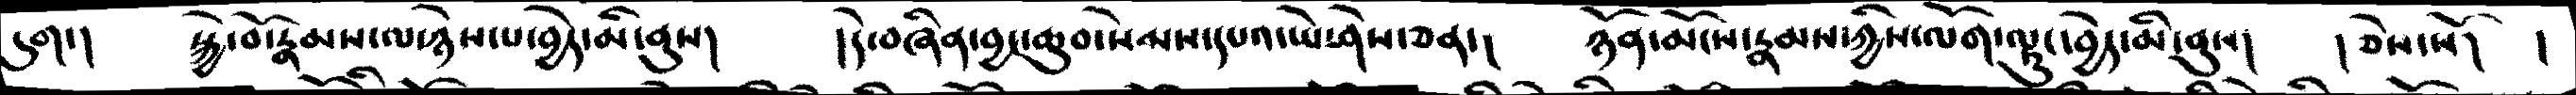དུག་།   སྐྱེ་བོ་རྣམས་ལ་ཉེས་པ་བྱེད་མི་ནུས།     །དེ་བཞིན་བྱང་ཆུབ་སེམས་དཔའ་ཡེ་ཤེས་ཅན་།     ཉོན་མོངས་རྣམས་ཀྱིས་ལོག་ལྟུང་བྱེད་མི་ནུས།  །ཅེས་སོ།  །
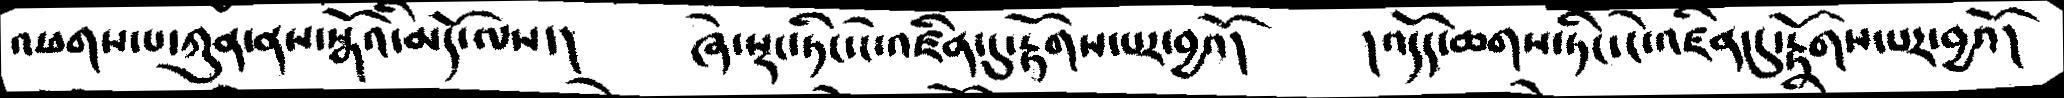འཕགས་པ་ཀུན་ནས་སྒོའི་མདོ་ལས་།    ཞེ་སྡང་ཏིང་ངེ་འཛིན་དུ་རྟོགས་པར་བྱའོ།     །འདོད་ཆགས་ཏིང་ངེ་འཛིནདུ་རྟོགས་པར་བྱའོ།
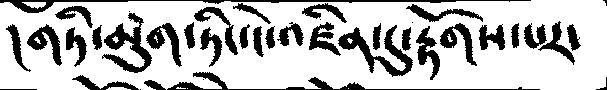།གཏི་མུག་ཏིང་ངེ་འཛིན་དུ་རྟོགས་པར་
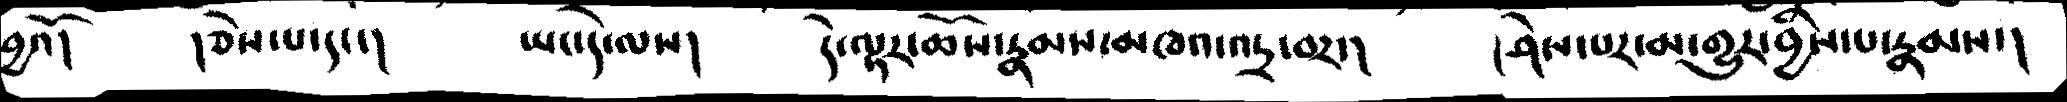བྱའོ།    །ཅེས་པ་དང་།    ཡང་དེ་ལས།     དེ་ལྟར་ཆོས་རྣམས་མཁའ་འདྲ་བར་།     །ཤེས་པར་མ་གྱུར་བྱིས་པ་རྣམས་།
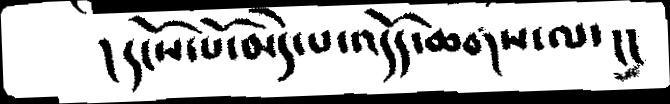།དངོས་པོ་མེད་པ་འདོད་ཆགས་ལ་།།
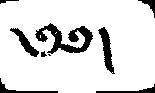༄༅།
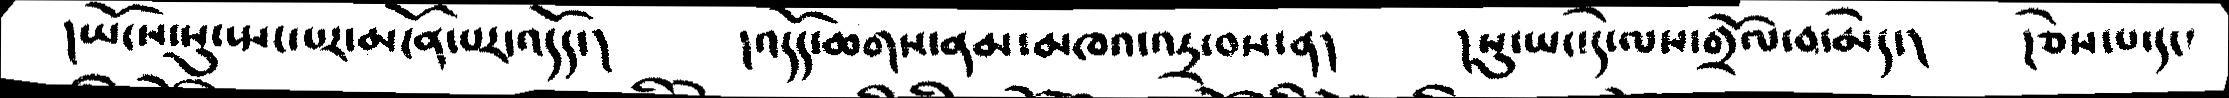།ཡོངས་སུ་སྤང་པར་མངོན་པར་འདོད་།     །འདོད་ཆགས་ནམ་མཁའ་འདྲ་བས་ན།      །སུ་ཡང་དེ་ལས་གྲོལ་བ་མེད་།    །ཅེས་པ་དང་
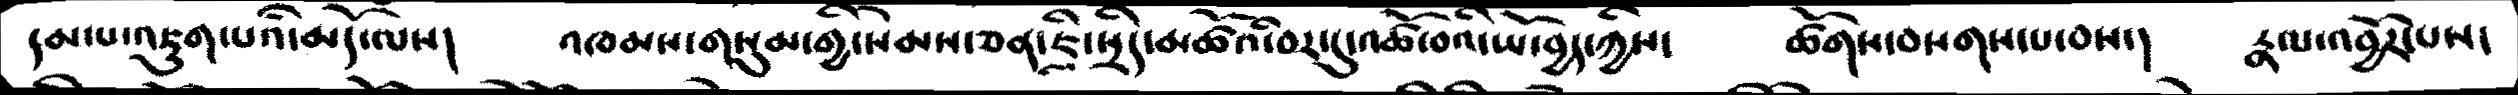དམ་པ་འཇུག་པའི་མདོ་ལས།   འཁམས་གསུམ་གྱི་སེམས་ཅན་ཇི་སྲིད་མཚོའི་བར་དུ་འཚོ་བའི་ཡོ་བྱད་ཀྱིས་    ཚོགས་བསག་པ་བས་།   རྣལ་འབྱོར་པས་
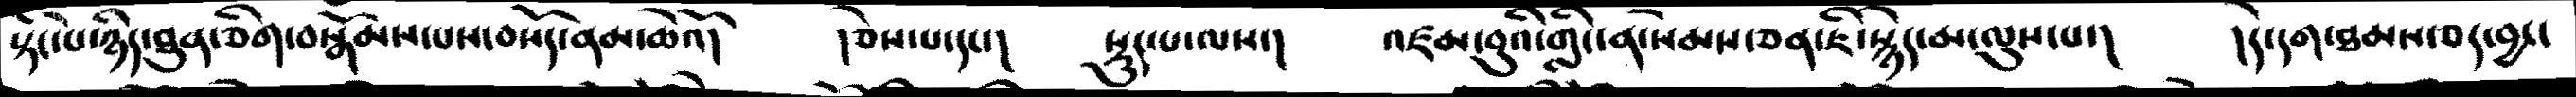སྟོང་པ་ཉིད་ཐུན་ཅིག་བསྒོམས་པས་བསོད་ནམ་ཆེའོ།    །ཅེས་པ་དང།   སྡུད་པ་ལས་།   འཛམ་བུའི་གླིང་ན་སེམས་ཅན་ཇི་སྙེད་མ་ལུས་པ་།   །དེ་དག་ཐམས་ཅད་བྱང་
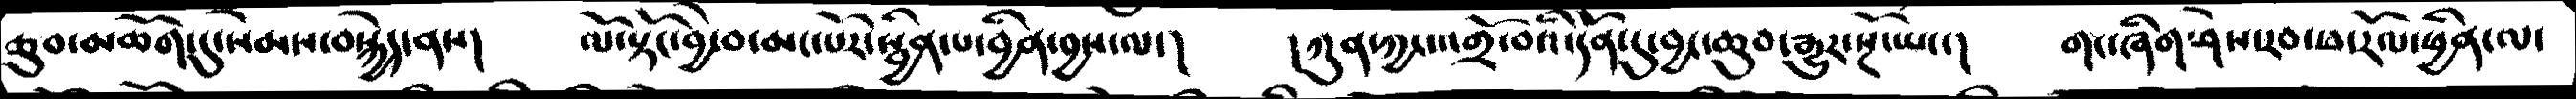ཆུབ་མཆོག་དུ་སེམས་བསྐྱེད་ནས།   ལོ་སྟོང་བྱེ་བ་མང་པོ་སྦྱིན་པ་བྱིན་བྱས་ལ་།   །ཀུན་ཀྱང་འགྲོ་བའི་དོན་དུ་བྱང་ཆུབ་རྒྱུར་སྔོ་ཡང་།    གང་ཞིག་ཤེས་རབ་ཕ་རོལ་ཕྱིན་ལ་
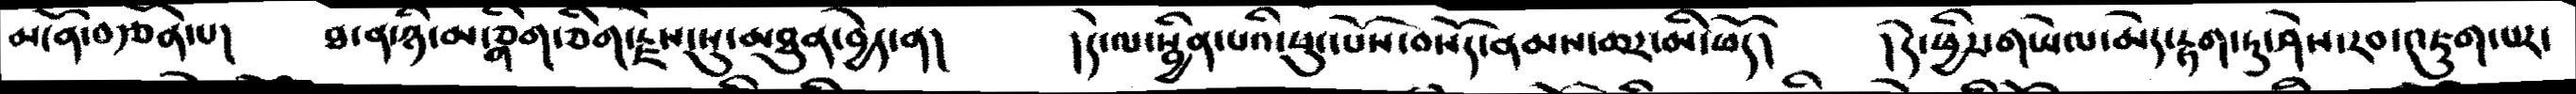མངོན་བརྩོན་པ།   ཐ་ན་ཉི་མ་གཅིག་ཅིག་རྗེས་སུ་མཐུན་བྱེད་ན།      །དེ་ལ་སྦྱིན་པའི་ཕུང་པོས་བསོད་ནམས་ཆར་མི་ཕོད།    །དེ་ཕྱིར་གཡེལ་མེད་རྟག་ཏུ་ཤེས་རབ་འཇུག་པར་
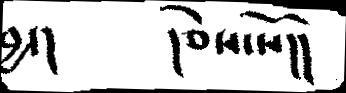བྱ་།                    །ཅེས་སོ།།
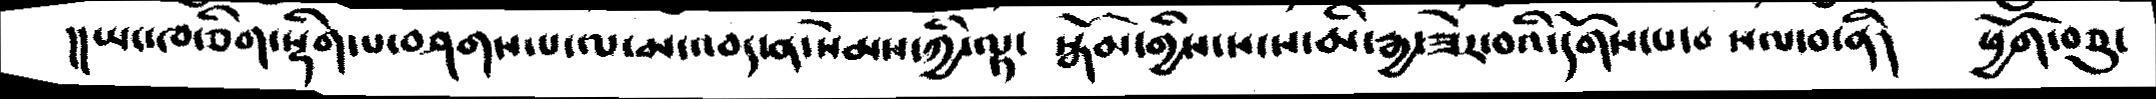།།ཡང་ཁ་ཅིག་སྡིག་པ་བཤགས་པ་ལ་མ་འབད་ན་སེམས་ཀྱི་ལྟ་  སྒོམ་གྱིས་སངས་མི་རྒྱ་ཟེར་བའི་དོགས་པ་བསལ་བ་ནི།   ཕྱོག་བཅུ་
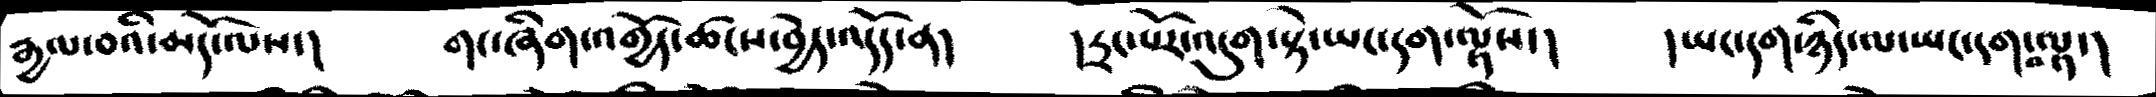རྒྱལ་བའི་མདོ་ལས་།    གང་ཞིག་འགྱོད་ཚངས་བྱེད་འདོད་ན།    །དྲང་པོར་འདུག་སྟེ་ཡང་དག་ལྟོས་།     །ཡང་དག་ཉིད་ལ་ཡང་དག་བལྟ་།
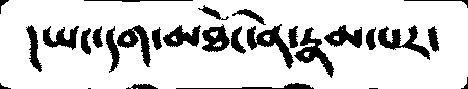།ཡང་དག་མཐོང་ན་རྣམ་པར་
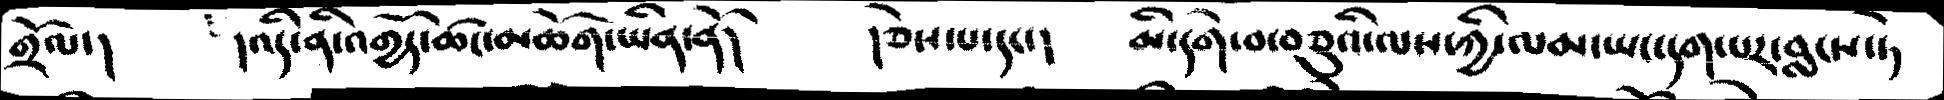གྲོལ་།   །འདི་ནི་འགྱོད་ཚང་མཆོག་ཡིན་ནོ།       །ཅེས་པ་དང་།    མི་དགེ་བ་བཅུའི་ལས་ཀྱི་ལམ་ཡང་དག་པར་བླངས་ཏེ
